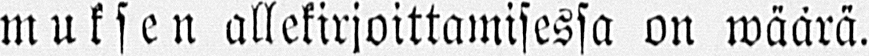muksen allekirjoittamisessa on wäärä.
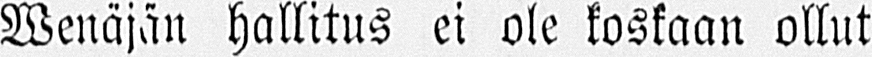Wenäjän hallitus ei ole koskaan ollut
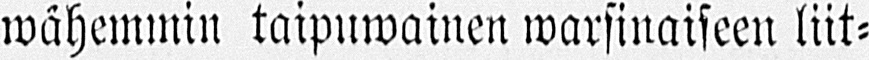wähemmin taipuwainen warsinaiseen liit-
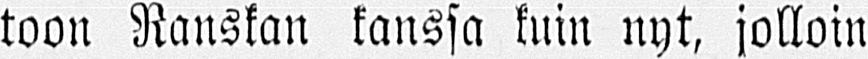toon Ranskan kanssa kuin nyt, jolloin
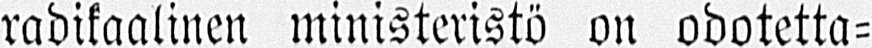radikaalinen ministeristö on odotetta-
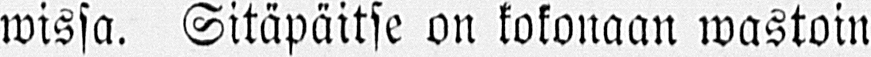wissa. Sitäpäitse on kokonaan wastoin
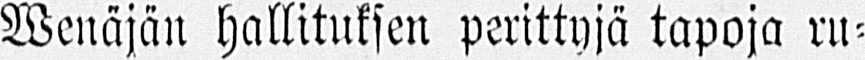Wenäjän hallituksen perittyjä tapoja ru-
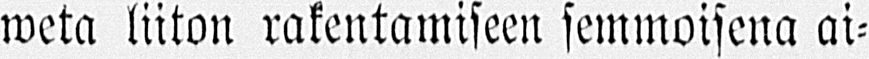weta liiton rakentamiseen semmoisena ai-
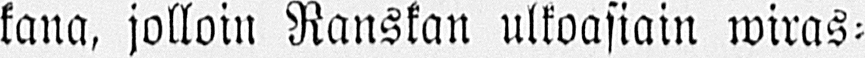kana, jolloin Ranskan ulkoasiain wiras-
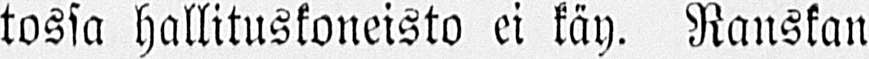tossa hallituskoneisto ei käy. Ranskan
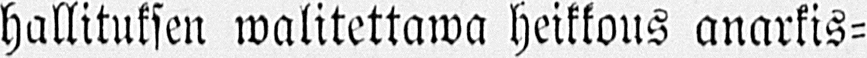hallituksen walitettawa heikkous anarkis-
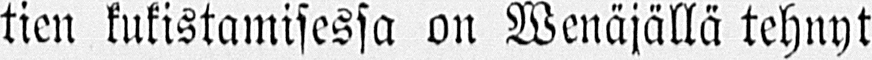tien kukistamisessa on Wenäjällä tehnyt
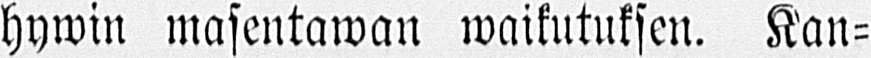hywin masentawan waikutuksen. Kan-
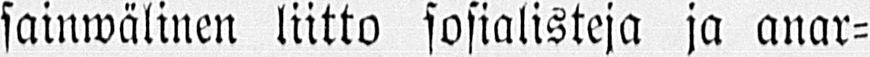sainwälinen liitto sosialisteja ja anar-
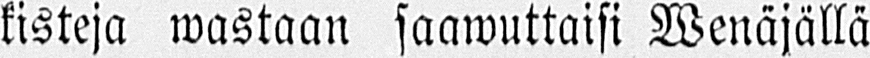kisteja wastaan saawuttaisi Wenäjällä
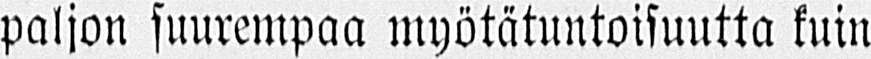paljon suurempaa myötätuntoisuutta kuin
